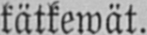kätkewät.
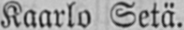Kaarlo Setä.
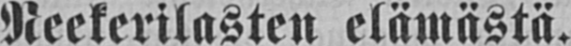Neekerilasten elämästä.
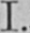I.
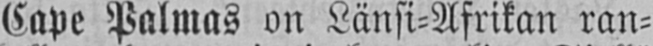Cape Palmas on Länsi-Afrikan ran-
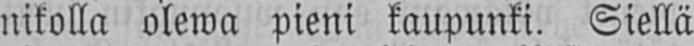nikolla olewa pieni kaupunki. Siellä
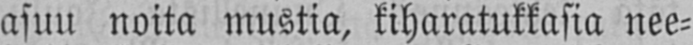asuu noita mustia, kiharatukkasia nee-
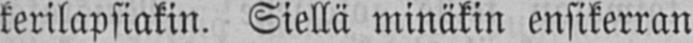kerilapsiakin. Siellä minäkin ensikerran
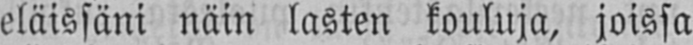eläissäni näin lasten kouluja, joissa
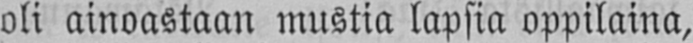oli ainoastaan mustia lapsia oppilaina,
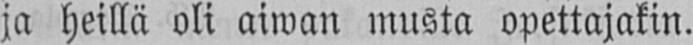ja heillä oli aiwan musta opettajakin.
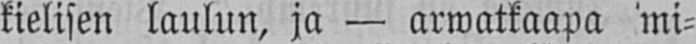kielisen laulun, ja — arwatkaapa mi-
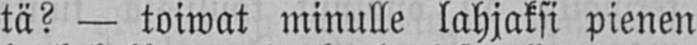tä? — toiwat minulle lahjaksi pienen
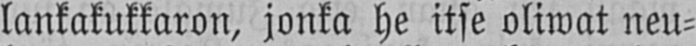lankakukkaron, jonka he itse oliwat neu-
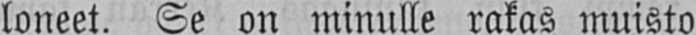loneet. Se on minulle rakas muisto
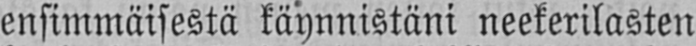ensimmäisestä käynnistäni neekerilasten
